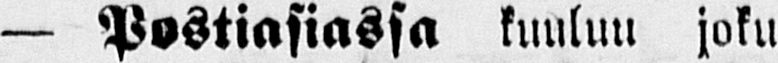— Postiasiassa kuuluu joku
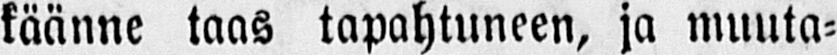käänne taas tapahtuneen, ja muuta-
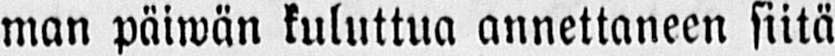man päiwän kuluttua annettaneen siitä
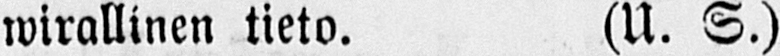wirallinen tieto. (U. S.)
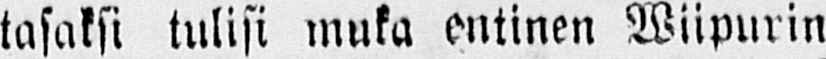tasaksi tulisi muka entinen Wiipurin
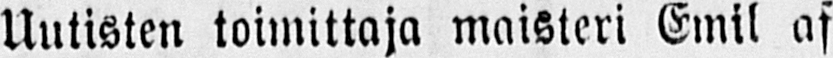Uutisten toimittaja maisteri Emil af
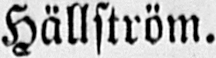Hällström.
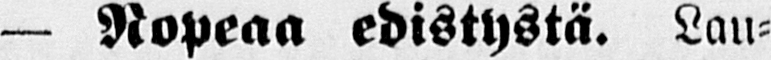— Nopeaa edistystä. Lau-
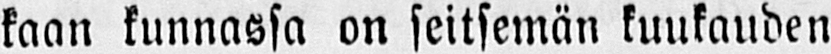kaan kunnassa on seitsemän kuukauden
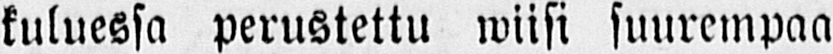kuluessa perustettu wiisi suurempaa
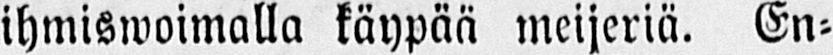ihmiswoimalla käypää meijeriä. En-
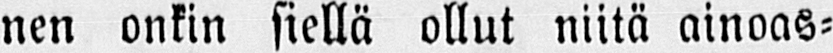nen onkin siellä ollut niitä ainoas-
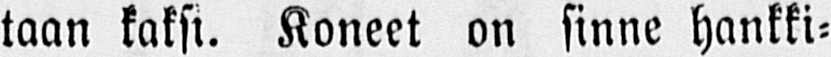taan kaksi. Koneet on sinne hankki-
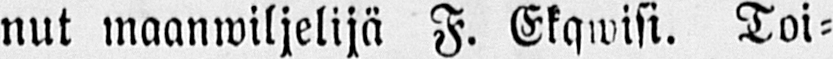nut maanwiljelijä F. Ekqwisi. Toi-
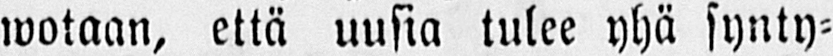wotaan, että uusia tulee yhä synty-
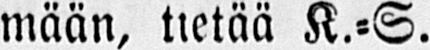mään, tietää K.-S.
